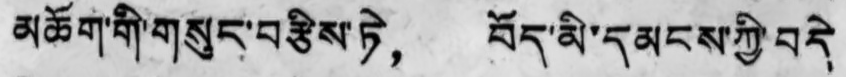མཆོག་གི་གསུང་བརྩིས་ཏེ， བོད་མི་དམངས་ཀྱི བདེ་
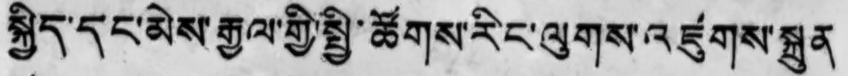སྐྱིད་དང་མེས་རྒྱལ་གྱི་སྤྱི་ཚོགས་རིང་ལུགས་འཛུགས་སྐྲུན
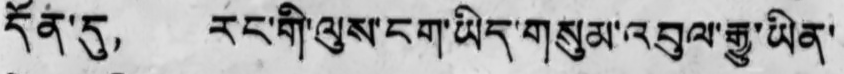དོན་དུ， རང་གི་ལུས་ངག་ཡིད་གསུམ་འབུལ་རྒྱུ་ཡིན་
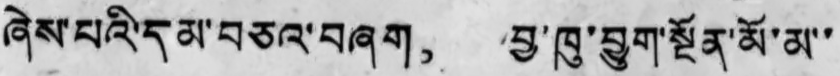ཞེས་པའི་དམ་བཅའ་བཞག， བྱ་ཁུ་བྱུག་སྔོན་མོ་མ་་
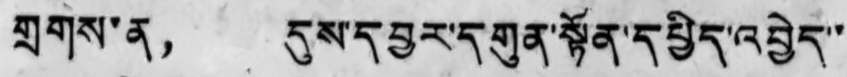གྲགས་ན， དུས་དབྱར་དགུན་སྟོན་དཔྱིད་འབྱེད་་
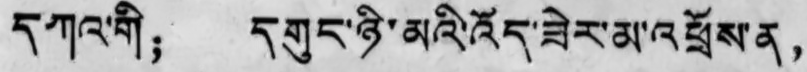དཀའ་གི； དགུང་ཉི་མའི་འོད་ཟེར་མ་འཕྲོས་ན，
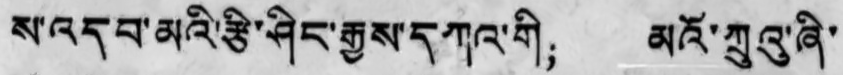ས་འདུབ་མའི་རྩི་ཤིང་རྒྱས་དཀའ་གི； མའོ་ཀྲུའུ་ཞི་
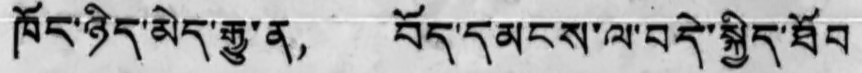ཁོང་ཉིད་མེད་རྒྱུ་ན， བོད་དམངས་ལ་བདེ་སྐྱིད་ཐོབ
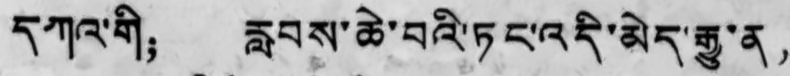དཀའ་གི； རླབས་ཆེ་བའི་ཏང་འདི་མེད་རྒྱུ་ན，
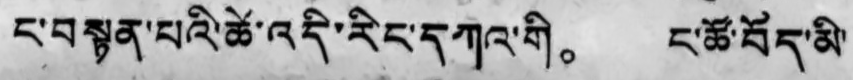ང་བསྟན་པའི་ཚེ་འདི་རིང་དཀའ་གི。 ང་ཚོ་བོད་མི
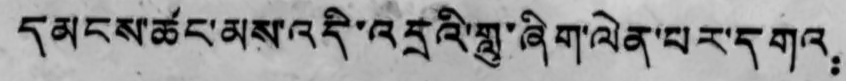དམངས་ཚང་མས་འདི་འདྲའི་གླུ་ཞིག་ལེན་པར་དགའ：
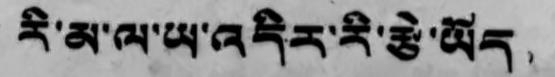རི་མ་ལ་ཡ་འདིར་རི་རྩེ་ཡོད，
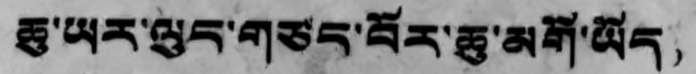ཆུ་ཡར་ལུད་གཙང་པོར་ཆུ་མགོ་ཡོད，
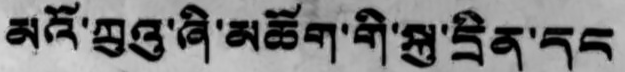མའོ་ཀྲུའུ་ཞི་མཆོག་གི་མུ་དྲིན་དང
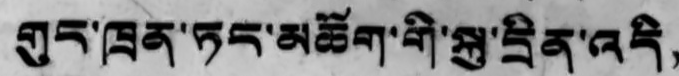གུང་ཁྲན་ཏང་མཆོག་གི་སྐུ་དྲིན་འདི，
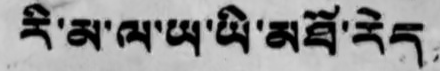རི་མ་ལ་ཡ་ཡི་མཐོ་རེད，
